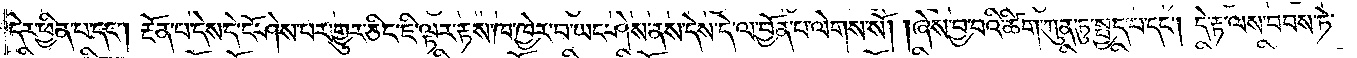དེར་ཕྱིན་པ་དང༌། རྔོན་པ་དེས་དེ་ངོ་ཤེས་པར་གྱུར་ཅིང་ཇི་ལྟར་རྟས་ཁ་ཁྱེར་བ་ཡང་ཤེས་ནས་དེས་དེ་ལ་བྱོན་པ་ལེགས་སོ། །ཞེས་བྱ་བའི་ཚིག་ཀུན་ཏུ་སྤྱད་པ་དང༌། དེ་རྟ་ལས་བབས་ཏེ།
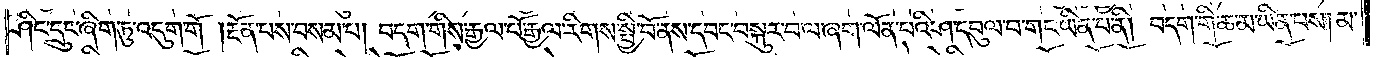ཤིང་དྲུང་ཞིག་ཏུ་འདུག་གོ །རྔོན་པས་བསམ་པ། བདག་གིས་རྒྱལ་པོ་རྒྱལ་རིགས་སྤྱི་བོ་ནས་དབང་བསྐུར་བ་ལ་ཞག་ལོན་པའི་ཤ་དབུལ་བ་གང་ཡིན་པ་ནི། བདག་གི་ཆ་མ་ཡིན་པས། མ་
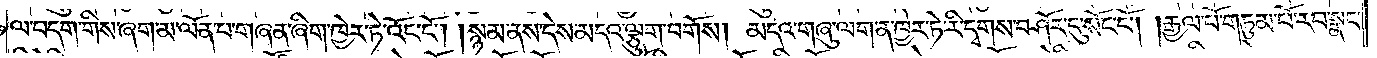ལ་བདག་གིས་ཞག་མ་ལོན་པ་གཞན་ཞིག་ཁྱེར་ཏེ་འོང་ངོ༌། །སྙམ་ནས་དེས་མདའ་ལྕུག་བགོས། མདའ་གཞུ་ལག་ན་ཁྱེར་ཏེ་རི་དྭགས་བཤོར་དུ་སོང་ངོ༌། །རྒྱལ་པོ་གཏུམ་པོ་རབ་སྣང་
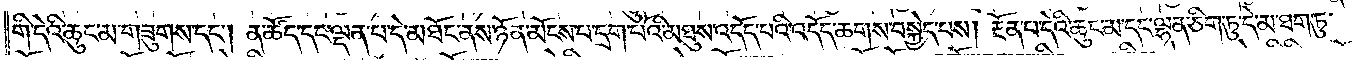གི་དེའི་ཆུང་མ་གཟུགས་དང༌། ན་ཚོད་དང་ལྡན་པ་དེ་མཐོང་ནས་ཉོན་མོངས་པ་དྲག་པོའི་མཐུས་འདོད་པའི་འདོད་ཆགས་བསྐྱེད་པས། རྔོན་པ་དེའི་ཆུང་མ་དང་ལྷན་ཅིག་ཏུ་དེ་མ་ཐག་ཏུ་
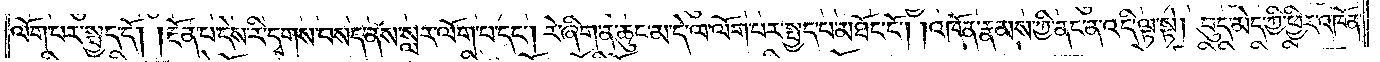ལོག་པར་སྤྱད་དོ། །རྔོན་པ་དེས་རི་དྭགས་བསད་ནས་སླར་ལོག་པ་དང༌། རེ་ཞིག་ན་ཆུང་མ་དེ་ལ་ལོག་པར་སྤྱད་པ་མཐོང་ངོ༌། །འཁོན་རྣམས་ཀྱི་ནང་ན་འདི་ལྟ་སྟེ། བུད་མེད་ཀྱི་ཕྱིར་འཁོན་
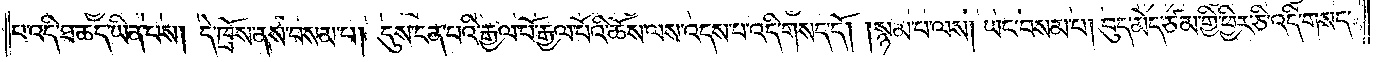པ་འདི་ཐ་ཆད་ཡིན་པས། དེ་ཁྲོས་ནས་བསམ་པ། དུས་ངན་པའི་རྒྱལ་པོ་རྒྱལ་པོའི་ཆོས་ལས་འདས་པ་འདི་གསད་དོ། །སྙམ་པ་ལས། ཡང་བསམ་པ། བུད་མེད་ཙམ་གྱི་ཕྱིར་ཅི་འདི་གསད་
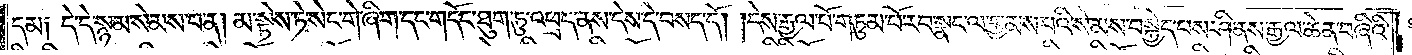དམ༑ དེ་དེ་སྙམ་སེམས་པ་ན། མ་སྟེས་ཏེ་སེང་གེ་ཞིག་དང་གདོང་ཐུག་ཏུ་འཕྲད་ནས་དེས་དེ་བསད་དོ། །དེས་རྒྱལ་པོ་གཏུམ་པོ་རབ་སྣང་ལ་བྱམས་པའི་སེམས་བསྐྱེད་པས་ཤི་ནས་རྒྱལ་ཆེན་བཞིའི་
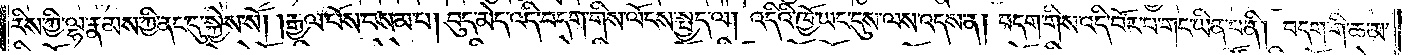རིས་ཀྱི་ལྷ་རྣམས་ཀྱི་ནང་དུ་སྐྱེས་སོ། །རྒྱལ་པོས་བསམ་པ། བུད་མེད་འདི་བདག་གིས་ལོངས་སྤྱད་ལ། འདིའི་ཁྱོ་ཡང་དུས་ལས་འདས་ན། བདག་གིས་འདི་བོར་པ་གང་ཡིན་པ་ནི། བདག་གི་ཆ་མ་
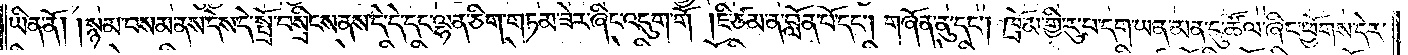ཡིན་ནོ། །སྙམ་བསམ་ནས་དེས་དེ་སྤྲོ་བསྲིངས་ནས་དེ་དེ་དང་ལྷན་ཅིག་གཏམ་ཟེར་ཞིང་འདུག་གོ །ཇི་ཙམ་ན་བློན་པོ་དང༌། གཞོན་ནུ་དང༌། ཁྲོམ་གྱི་རུ་པ་དག་ཡན་མན་དུ་ཚོལ་ཞིང་ཕྱོགས་དེར་
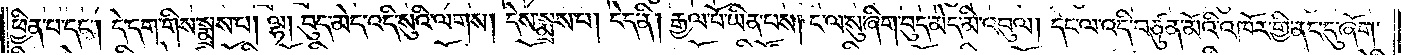ཕྱིན་པ་དང༌། དེ་དག་གིས་སྨྲས་པ། ལྷ། བུད་མེད་འདི་སུའི་ལགས། དེས་སྨྲས་པ། ངེད་ནི། རྒྱལ་པོ་ཡིན་པས། ང་ལ་སུ་ཞིག་བུད་མེད་མི་འབུལ། དེང་ལ་འདི་བཙུན་མོའི་འཁོར་གྱི་ནང་དུ་ཞོག་
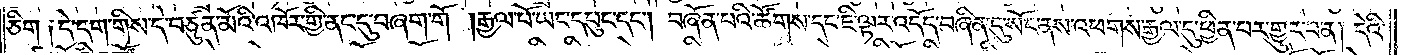ཅིག ༑དེ་དག་གིས་དེ་བཙུན་མོའི་འཁོར་གྱི་ནང་དུ་བཞག་གོ །རྒྱལ་པོ་ཡང་དཔུང་དང༌། བཞོན་པའི་ཚོགས་དང་ཇི་ལྟར་འདོད་བཞིན་དུ་སོང་ནས་འཕགས་རྒྱལ་དུ་ཕྱིན་པར་གྱུར་བ་ན། དེའི་
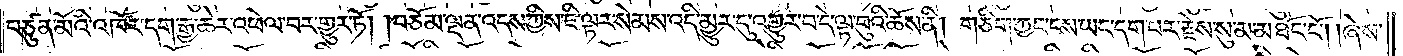བཙུན་མོའི་འཁོར་དག་རྒྱ་ཆེར་འཕེལ་བར་གྱུར་ཏོ། །བཅོམ་ལྡན་འདས་ཀྱིས་ཇི་ལྟར་སེམས་འདི་མྱུར་དུ་འགྱུར་བ་དེ་ལྟ་བུའི་ཆོས་ནི། གཅིག་ཀྱང་ངས་ཡང་དག་པར་རྗེས་སུ་མ་མཐོང་ངོ༌། །ཞེས་
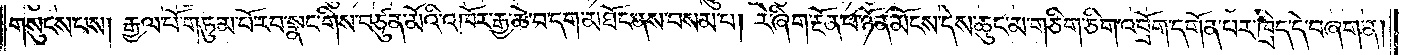གསུངས་པས། རྒྱལ་པོ་གཏུམ་པོ་རབ་སྣང་གིས་བཙུན་མོའི་འཁོར་རྒྱ་ཆེ་བ་དག་མཐོང་ནས་བསམ་པ། རེ་ཞིག་རྔོན་པ་ཉོན་མོངས་དེས་ཆུང་མ་གཅིག་ཅིག་འབྲོག་དགོན་པར་ཁྲིད་དེ་བཞག་ན།
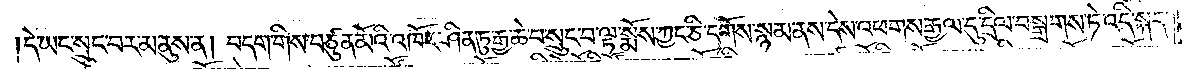དེ་ཡང་སྲུང་བར་མ་ནུས་ན། བདག་གིས་བཙུན་མོའི་འཁོར་ཤིན་ཏུ་རྒྱ་ཆེ་བ་སྲུང་བ་ལྟ་སྨོས་ཀྱང་ཅི་དགོས་སྙམ་ནས་དེས་འཕགས་རྒྱལ་དུ་དྲིལ་བསྒྲགས་ཏེ་འདི་སྐད་
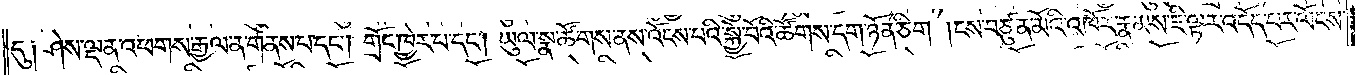དུ༑ ཤེས་ལྡན་འཕགས་རྒྱལ་ན་གནས་པ་དང༌། གྲོང་ཁྱེར་པ་དང༌། ཡུལ་སྣ་ཚོགས་ནས་འོངས་པའི་སྐྱེ་བོའི་ཚོགས་དག་ཉོན་ཅིག །ངས་བཙུན་མོའི་འཁོར་རྣམས་ཇི་ལྟར་འདོད་པར་ལོངས་
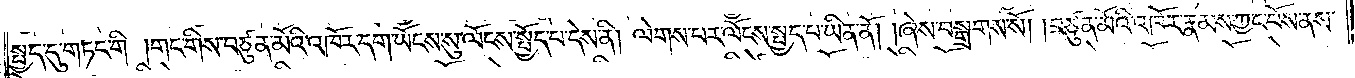སྤྱད་དུ་གཏང་གི །གང་གིས་བཙུན་མོའི་འཁོར་དག་ཡོངས་སུ་ལོངས་སྤྱོད་པ་དེས་ནི། ལེགས་པར་ལོངས་སྤྱད་པ་ཡིན་ནོ། །ཞེས་བསྒྲགས་སོ། །བཙུན་མོའི་འཁོར་རྣམས་ཀྱང་བོས་ནས་
